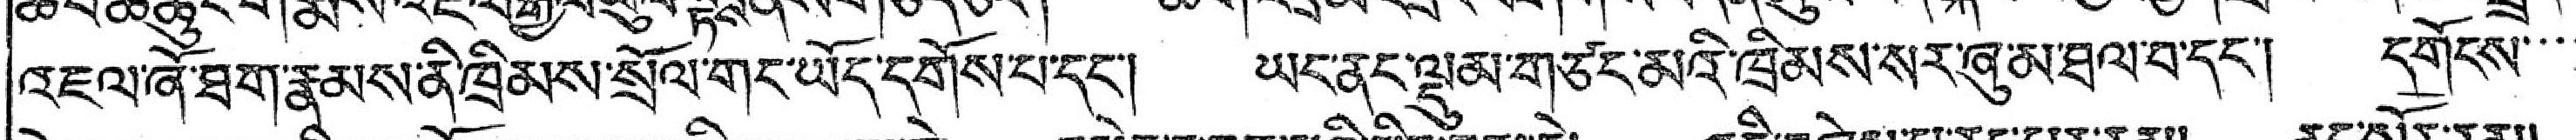འདཛུལ་ཞོ་ཐག་རྣམས་ནི་ཁྲིམས་སྲོལ་གོང་ཡོད་དགོས་པ་དང་། ཡང་ནང་ལྡུམ་གཙང་མའི་ཁྲིམས་སར་ཞུ་མ་ཐལ་བ་དང་། དགོངས་་་་
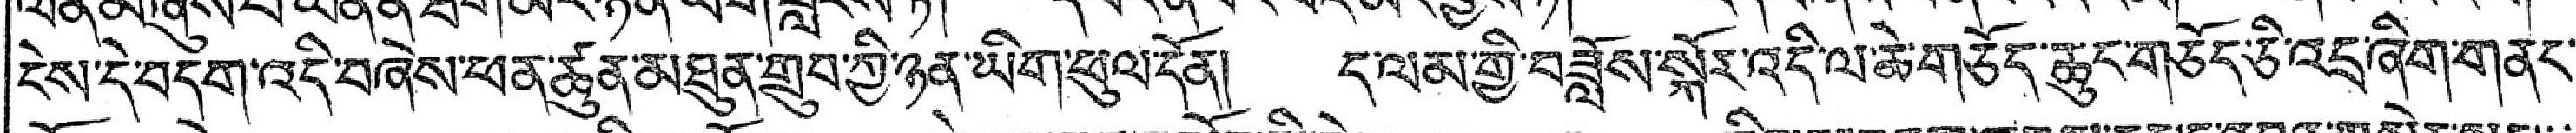ངེས་དེ་བདག་འདི་བཞེས་ཕན་ཚུན་མཐུན་གྲུབ་ཀྱི་ཉན་ཡིག་ཕུལ་དོན། ད་ལམ་གྱི་བཟློས་སྐོར་འདི་ལ་ཆེ་གཅོད་ཆུང་གཅོད་ཅི་འདྲ་ཞིག་གནང་
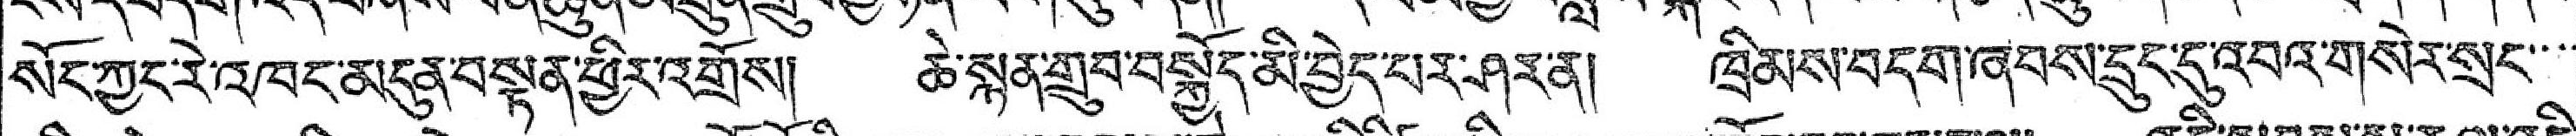སོང་ཀྱང་རེ་འཁང་མདུན་བསྟན་ཕྱིར་འགྲོས། ཆེ་སྙན་གྲུབ་བསྐྱོད་མི་བྱེད་པར་ཤར་ན། ཁྲིམས་བདག་ཞབས་དྲུང་དུ་འབའ་གསེར་སྲང་་་་
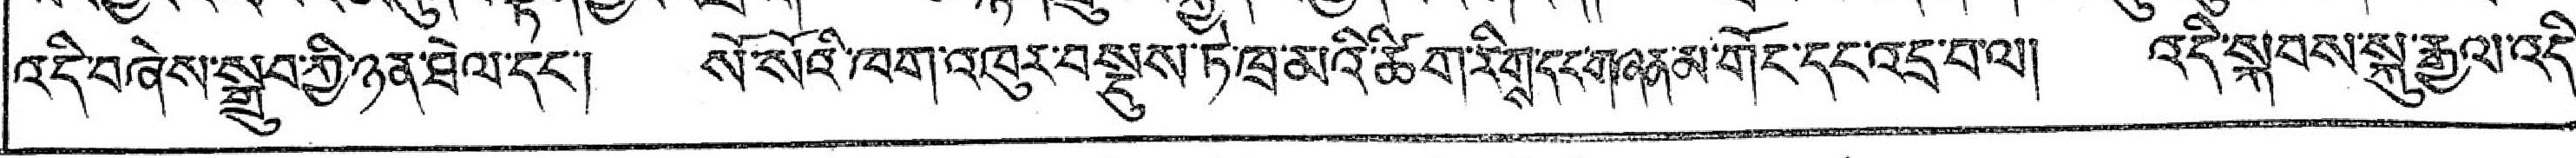འདི་བཞེས་སྒྲུབ་ཀྱི་ཉན་ཐེལ་དང་། སོ་སོའི་ཁག་འཁུར་བསྡུས་ཏེ་ཁྲ་མའི་ཚིག་རིགས་དང་གཞན་མ་གོང་དང་འདྲ་བ་ལ། འདི་སྐབས་སྐུ་རྒྱལ་འདི་
